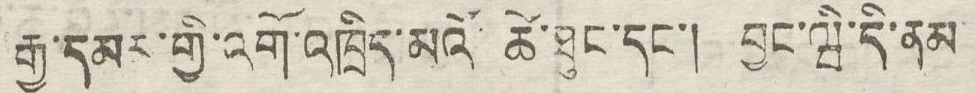རྒྱ་དམར་གྱི་འགོ་འཁྲིད་མའོ་ཚེ་ཐུང་དང་། བྱང་ཝི་དི་ནམ་
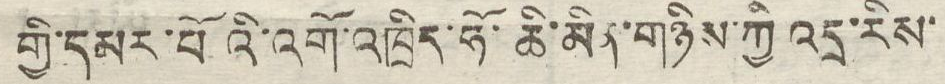གྱི་དམར་པོའི་འགོ་འཁྲིད་ཧོ་ཆི་མིན་གཉིས་ཀྱི འདྲ་རིས་
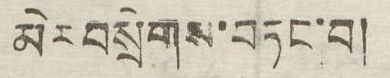མེར་བསྲེགས་བཏང་བ།
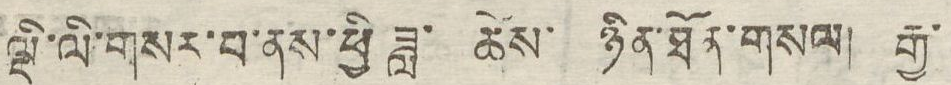ལྡི་ལི་གསར་པ་ནས་ཕྱི ཟླ་ ཚེས་ ཉིན་ཐོན་གསལ། རྒྱ་
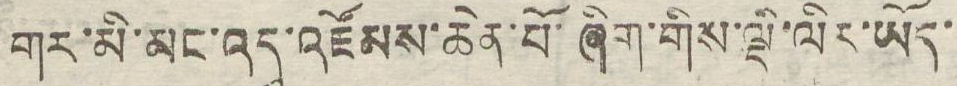གར་མི་མང་འདུ་འཛོམས་ཆེན་པོ་ཞིག་གིས་ལྡི་ལིར་ཡོད་
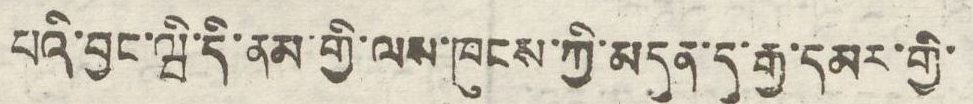པའི་བྱང་ཝི་དི་ནམ་གྱི་ལས་ཁུངས་ཀྱི་མདུན་དུ་རྒྱ་དམར་གྱི་
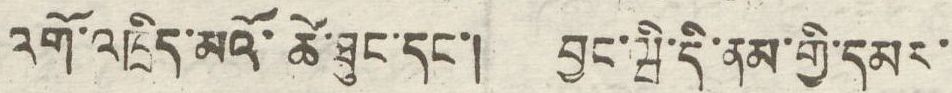འགོ་འཁྲིད་མའོ་ཚེ་ཐུང་དང་། བྱང་ཝི་དི་ནམ་གྱི་དམར་
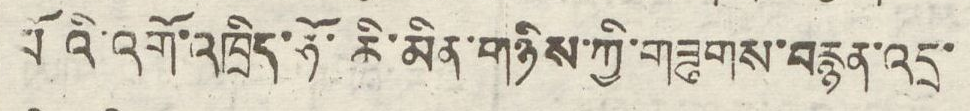པོའི་འགོ་འཁྲིད་ཧོ་ཆི་མིན་གཉིས་ཀྱི་གཟུགས་བརྙན་འདྲ་
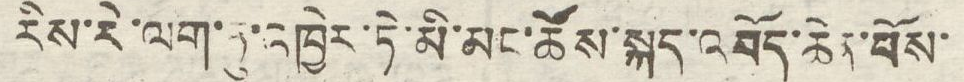རིས་རེ་ལག་ཏུ་འཁྱེར་ཏེ་མི་མང་ཚོས་སྐད་འབོད་ཆེན་པོས་
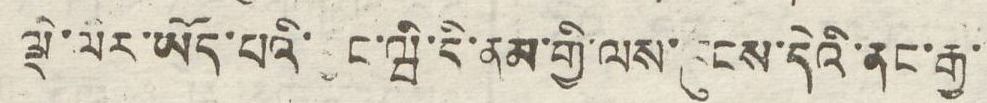ལྡི་ལིར་ཡོད་པའི་བྱང་ཝི་དི་ནམ་གྱི་ལས་ཁུངས་དེའི་ནང་རྒྱ་
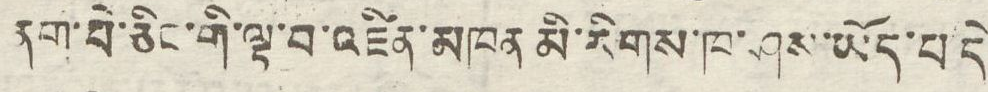ནག་པེ་ཅིང་གི་ལྟ་བ་འཛིན་མཁན མི་རིགས་ཁ་ཤས་ཡོད་པ་དེ
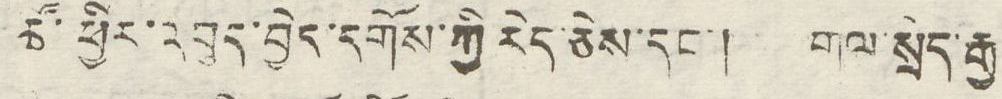ཚོ་ཕྱིར་འབུད་བྱེད་དགོས་ཀྱི རེད་ཅེས་དང། གལ་སྲིད་རྒྱ་
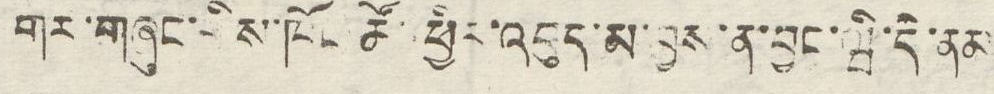གར་གཞུང་གྱིས་ཁོང་ཚོ་ཕྱིར་འབུད་མ་བྱས་ན་བྱང་ཝི་དི་ནམ
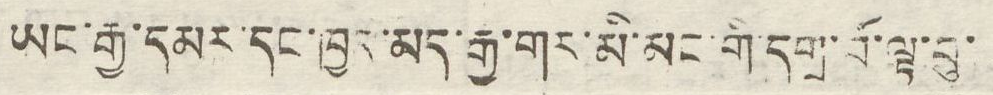ཡང་རྒྱ་དམར་དང་ཁྱལ་མད་རྒྱ་གར་མི་མང་གི་དགྲ་པོ་ལྟ་བུ་
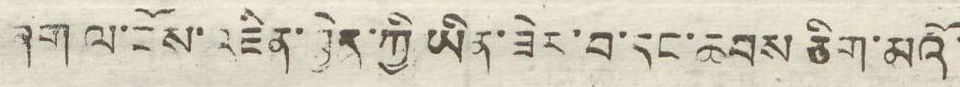ཞག ལ་ངོས་འཛིན་བྱེད་ཀྱི ཡིན་ཟེར་བ་དང་ཆབས ཅིག་མའོ་
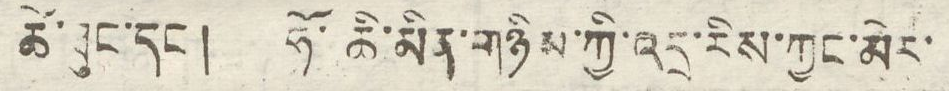ཚེ་ཐུང་དང་། ཧོ་ཆི་མིན་གཉིས་ཀྱི་འདྲ་རིས་ཀྱང་མེར་
